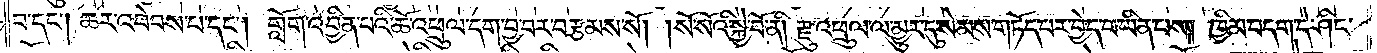བ་དང༌། ཆར་འབེབས་པ་དང༌། གློག་འབྱིན་པའི་ཆོ་འཕྲུལ་དག་བྱ་བར་བརྩམས་སོ། །སོ་སོའི་སྐྱེ་བོ་ནི། རྫུ་འཕྲུལ་ལ་མྱུར་དུ་སེམས་གཏོད་པར་བྱེད་པ་ཡིན་པས། ཁྱིམ་བདག་དེ་ཤིང་
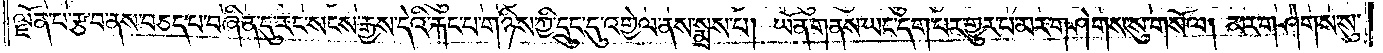ལྗོན་པ་རྩ་བ་ནས་བཅད་པ་བཞིན་དུ་རང་སངས་རྒྱས་དེའི་རྐང་པ་གཉིས་ཀྱི་དྲུང་དུ་འགྱེལ་ནས་སྨྲས་པ། ཡོན་གནས་ཡང་དག་པར་གྱུར་པ་མར་གཤེགས་སུ་གསོལ། མར་གཤེགས་སུ་
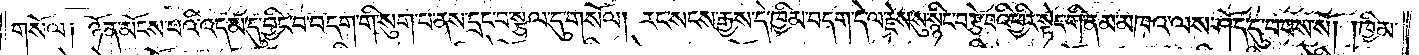གསོལ། ཉོན་མོངས་པའི་འདམ་དུ་བྱིང་བ་བདག་གི་སུག་པ་ནས་དྲང་བ་སྩལ་དུ་གསོལ། རང་སངས་རྒྱས་དེ་ཁྱིམ་བདག་དེ་ལ་རྗེས་སུ་སྙིང་བརྩེ་བའི་ཕྱིར་སྟེང་གི་ནམ་མཁའ་ལས་ཤོད་དུ་བབས་སོ། །ཁྱིམ་
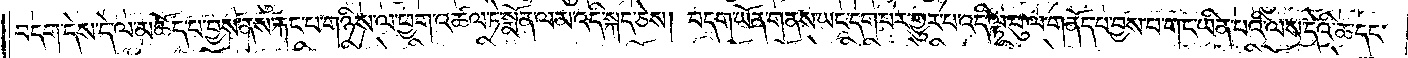བདག་དེས་དེ་ལ་མཆོད་པ་བྱས་ནས་རྐང་པ་གཉིས་ལ་ཕྱག་འཚལ་ཏེ་སྨོན་ལམ་འདི་སྐད་ཅེས། བདག་ཡོན་གནས་ཡང་དག་པར་གྱུར་པ་འདི་ལྟ་བུ་ལ་གནོད་པ་བྱས་པ་གང་ཡིན་པའི་ལས་དེའི་ཆ་དང་
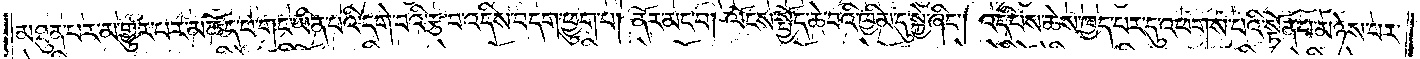མཐུན་པར་མ་གྱུར་པར་མཆོད་པ་གང་ཡིན་པའི་དགེ་བའི་རྩ་བ་འདིས་བདག་ཕྱུག་པ། ནོར་མང་བ། ལོངས་སྤྱོད་ཆེ་བའི་ཁྱིམ་དུ་སྐྱེ་ཞིང༌། འདི་པས་ཆེས་ཁྱད་པར་དུ་འཕགས་པའི་སྟོན་པ་མཉེས་པར་
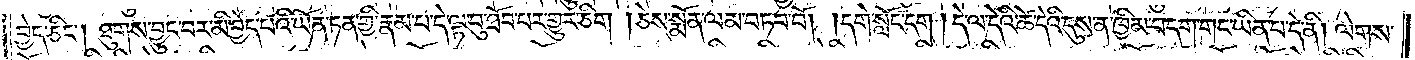བྱེད་ཅིང༌། ཐུགས་བྱུང་བར་མི་བྱེད་པའི་ཡོན་ཏན་གྱི་རྣམ་པ་དེ་ལྟ་བུ་ཐོབ་པར་གྱུར་ཅིག །ཅེས་སྨོན་ལམ་བཏབ་བོ། །དགེ་སློང་དག །དེ་ལ་དེའི་ཚེ་དེའི་དུས་ན་ཁྱིམ་བདག་གང་ཡིན་པ་དེ་ནི། ལེགས་
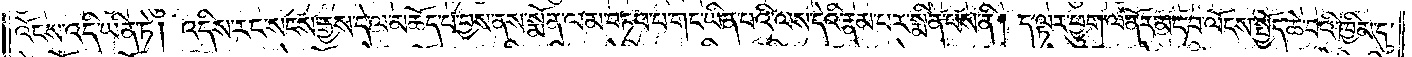འོངས་འདི་ཡིན་ཏེ། འདིས་རང་སངས་རྒྱས་དེ་ལ་མཆོད་པ་བྱས་ནས་སྨོན་ལམ་བཏབ་པ་གང་ཡིན་པའི་ལས་དེའི་རྣམ་པར་སྨིན་པས་ནི། ད་ལྟར་ཕྱུག་ལ་ནོར་མང་བ་ལོངས་སྤྱོད་ཆེ་བའི་ཁྱིམ་དུ་
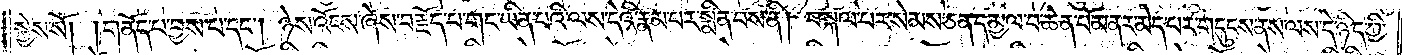སྐྱེས་སོ། །གནོད་པ་བྱས་པ་དང༌། ཉེས་འོངས་ཞེས་བརྗོད་པ་གང་ཡིན་པའི་ལས་དེའི་རྣམ་པར་སྨིན་བས་ནི། བསྐལ་པར་སེམས་ཅན་དམྱལ་བ་ཆེན་པོ་མནར་མེད་པར་གདུངས་ནས་ལས་དེ་ཉིད་ཀྱི་
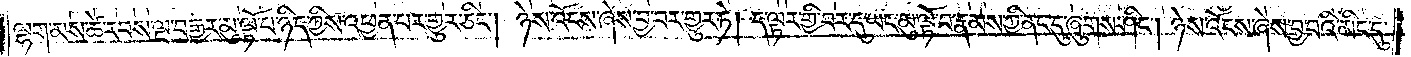ལྷག་མས་ཚེ་རབས་ལྔ་བརྒྱར་མུ་ལྟོ་པ་ཉིད་ཀྱིས་འཕྱན་པར་གྱུར་ཅིང༌། ཉེས་འོངས་ཞེས་བྱ་བར་གྱུར་ཏེ། ད་ལྟར་གྱི་བར་དུ་ཡང་མུ་ལྟོ་བ་རྣམས་ཀྱི་ནང་དུ་ཞུགས་ཤིང༌། ཉེས་འོངས་ཞེས་བྱ་བའི་མིང་དུ་
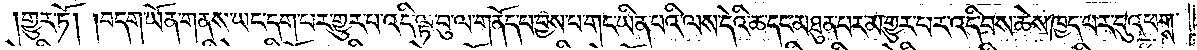།གྱུར་ཏོ། །བདག་ཡོན་གནས་ཡང་དག་པར་གྱུར་པ་འདི་ལྟ་བུ་ལ་གནོད་པ་བྱས་པ་གང་ཡིན་པའི་ལས་དེའི་ཆ་དང་མཐུན་པར་མ་གྱུར་པར་འདི་བས་ཆེས་ཁྱད་པར་དུ་འཕགས་
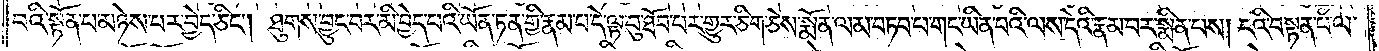པའི་སྟོན་པ་མཉེས་པར་བྱེད་ཅིང༌། ཐུགས་བྱུང་བར་མི་བྱེད་པའི་ཡོན་ཏན་གྱི་རྣམ་པ་དེ་ལྟ་བུ་ཐོབ་པར་གྱུར་ཅིག་ཅེས་སྨོན་ལམ་བཏབ་པ་གང་ཡིན་པའི་ལས་དེའི་རྣམ་པར་སྨིན་པས། ངའི་བསྟན་པ་ལ་
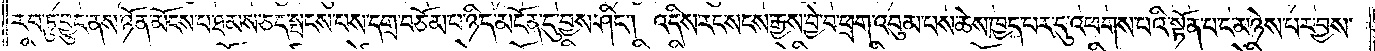རབ་ཏུ་བྱུང་ནས་ཉོན་མོངས་པ་ཐམས་ཅད་སྤངས་པས་དགྲ་བཅོམ་པ་ཉིད་མངོན་དུ་བྱས་ཤིང༌། འདིས་རང་སངས་རྒྱས་བྱེ་བ་ཕྲག་འབུམ་པས་ཆེས་ཁྱད་པར་དུ་འཕགས་པའི་སྟོན་པ་ང་མཉེས་པར་བྱས་
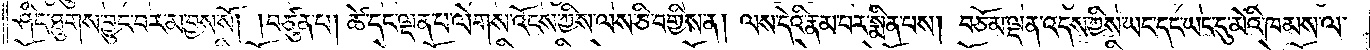ཤིང་ཐུགས་བྱུང་བར་མ་བྱས་སོ། །བཙུན་པ། ཚེ་དང་ལྡན་པ་ལེགས་འོངས་ཀྱིས་ལས་ཅི་བགྱིས་ན། ལས་དེའི་རྣམ་པར་སྨིན་པས། བཅོམ་ལྡན་འདས་ཀྱིས་ཡང་དང་ཡང་དུ་མེའི་ཁམས་ལ་
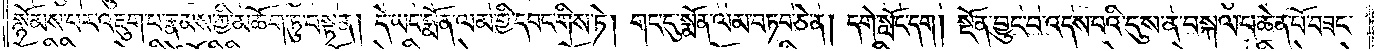སྙོམས་པར་འཇུག་པ་རྣམས་ཀྱི་མཆོག་ཏུ་བསྟན། དེ་ཡང་སྨོན་ལམ་གྱི་དབང་གིས་ཏེ། གང་དུ་སྨོན་ལམ་བཏབ་ཅེ་ན། དགེ་སློང་དག། སྔོན་བྱུང་བ་འདས་པའི་དུས་ན་བསྐལ་པ་ཆེན་པོ་བཟང་
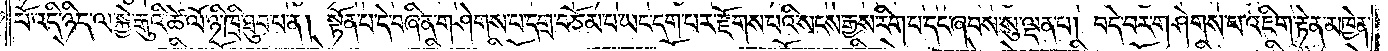པོ་འདི་ཉིད་ལ་སྐྱེ་རྒུའི་ཚེ་ལོ་ཉི་ཁྲི་ཐུབ་པ་ན། སྟོན་པ་དེ་བཞིན་གཤེགས་པ་དགྲ་བཅོམ་པ་ཡང་དག་པར་རྫོགས་པའི་སངས་རྒྱས་རིག་པ་དང་ཞབས་སུ་ལྡན་པ། བདེ་བར་གཤེགས་པ་འཇིག་རྟེན་མཁྱེན་
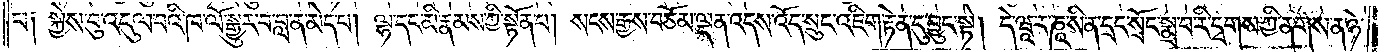པ། སྐྱེས་བུ་འདུལ་བའི་ཁ་ལོ་སྒྱུར་བ་བླ་ན་མེད་པ། ལྷ་དང་མི་རྣམས་ཀྱི་སྟོན་པ། སངས་རྒྱས་བཅོམ་ལྡན་འདས་འོད་སྲུང་འཇིག་རྟེན་དུ་བྱུང་སྟེ། དེ་ཝཱ་ར་ཎཱ་སི་ན་དྲང་སྲོང་སྨྲ་བ་རི་དྭགས་ཀྱི་ནགས་ན་ཉེ་
